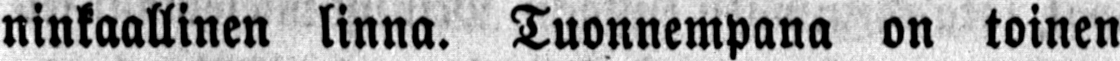ninkaallinen linna. Tuonnempana on toinen
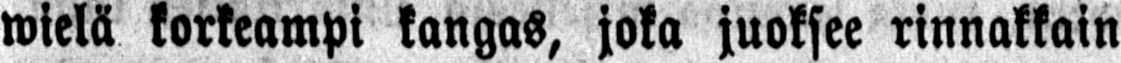wielä korkeampi kangas, joka juoksee rinnakkain
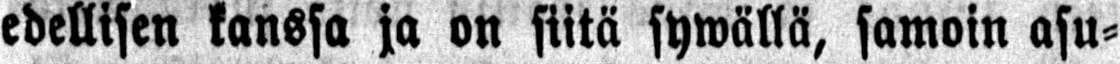edellisen kanssa ja on siitä sywällä, samoin asu-
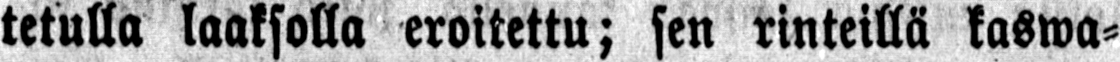tetulla laaksolla eroitettu; sen rinteillä kaswa-
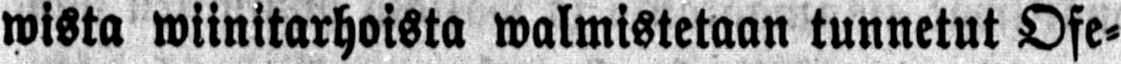wista wiinitarhoista walmistetaan tunnetut Ofe-
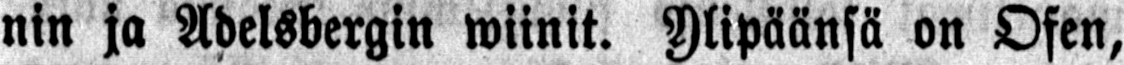nin ja Adelsbergin wiinit. Ylipäänsä on Ofen,
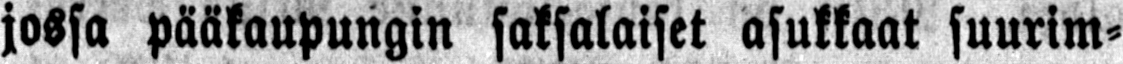jossa pääkaupungin saksalaiset asukkaat suurim-
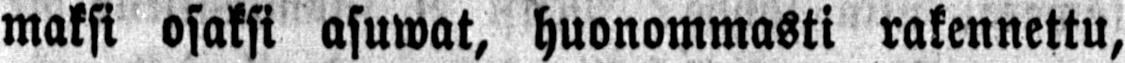maksi osaksi asuwat, huonommasti rakennettu,
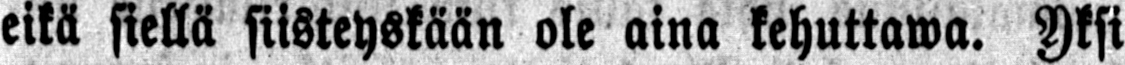eikä siellä siisteyskään ole aina kehuttawa. Yksi
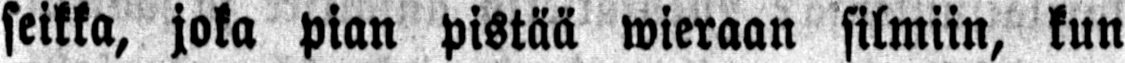seikka, joka pian pistää wieraan silmiin, kun
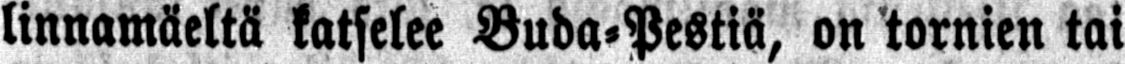linnamäeltä katselee Buda-Pestiä, on tornien tai
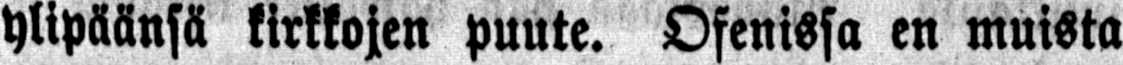ylipäänsä kirkkojen puute. Ofenissa en muista
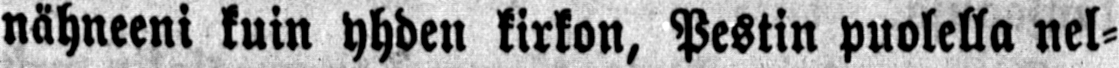nähneeni kuin yhden kirkon, Pestin puolella nel-
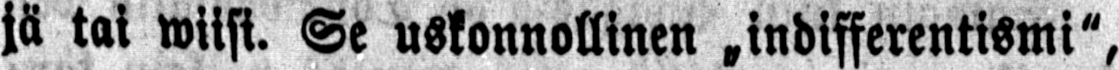jä tai wiisi. Se uskonnollinen „indifferentismi",
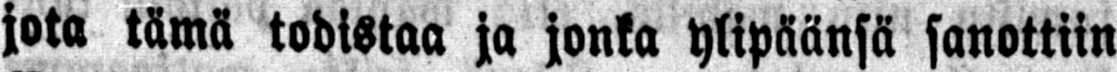jota tämä todistaa ja jonka ylipäänsä sanottiin
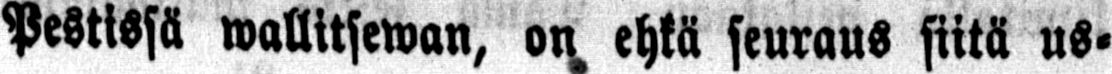Pestisä wallitsewan, on ehkä seuraus siitä us-
